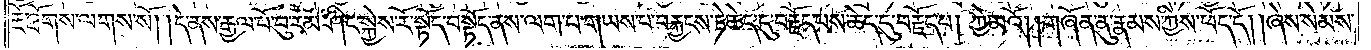རྔོ་ཐོགས་ལགས་སོ། །དེ་ནས་རྒྱལ་པོ་བུ་རམ་ཤིང་སྐྱེས་རོ་སྟོད་བསྟོད་ནས་ལག་པ་གཡས་པ་བརྐྱངས་ཏེ་ཆེད་དུ་བརྗོད་པས་ཆེད་དུ་བརྗོད་པ། ཀྱེ་མའོ། །གཞོན་ནུ་རྣམས་ཀྱིས་ཕོད་དོ། །ཞེས་སེམས་
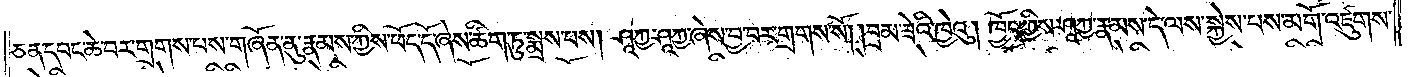ཅན་དབང་ཆེ་བར་གྲགས་པས་གཞོན་ནུ་རྣམས་ཀྱིས་ཕོད་དོ་ཞེས་ཚིག་ཏུ་སྨྲས་པས། ཤཱཀྱ་ཤཱཀྱ་ཞེས་བྱ་བར་གྲགས་སོ། །བྲམ་ཟེའི་ཁྱེའུ། ཁྱོད་ཀྱིས་ཤཱཀྱ་རྣམས་དེ་ལས་སྐྱེས་པས་མགོ་འཛུགས་
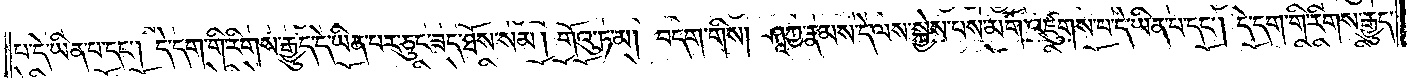པ་དེ་ཡིན་པ་དང༌། དེ་དག་གི་རིགས་རྒྱུད་དེ་ཡིན་པར་ཅུང་ཟད་ཐོས་སམ། གོའུ་ཏ་མ། བདག་གིས། ཤཱཀྱ་རྣམས་དེ་ལས་སྐྱེས་པས་མགོ་འཛུགས་པ་དེ་ཡིན་པ་དང༌། དེ་དག་གི་རིགས་རྒྱུད་
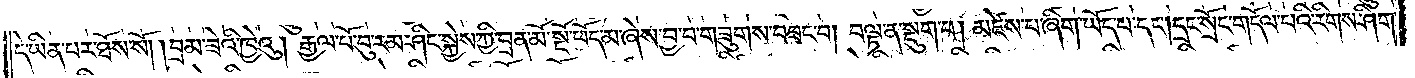དེ་ཡིན་པར་ཐོས་སོ། །བྲམ་ཟེའི་ཁྱེའུ། རྒྱལ་པོ་བུ་རམ་ཤིང་སྐྱེས་ཀྱི་བྲན་མོ་སྔོ་ཕོད་མ་ཞེས་བྱ་བ་གཟུགས་བཟང་བ། བལྟ་ན་སྡུག་པ། མཛེས་པ་ཞིག་ཡོད་པ་དང༌། དྲང་སྲོང་གདོལ་པའི་རིགས་ཤིག་
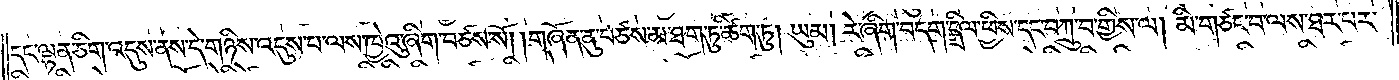དང་ལྷན་ཅིག་འདུས་ནས་དེ་གཉིས་འདུས་པ་ལས་ཁྱེའུ་ཞིག་བཙས་སོ། །གཞོན་ནུ་བཙས་མ་ཐག་ཏུ་ཚིག་ཏུ། ཡུམ། རེ་ཞིག་བདག་དྲིལ་ཕྱིས་དང་བཀྲུ་བ་གྱིས་ལ། མི་གཙང་བ་ལས་ཐར་པར་
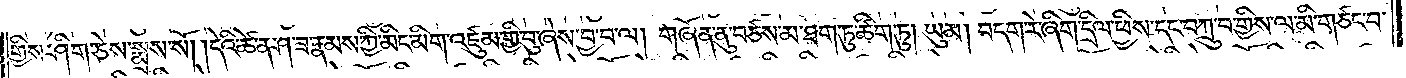གྱིས་ཤིག་ཅེས་སྨྲས་སོ། །དེའི་ཚེ་ན་ཤ་ཟ་རྣམས་ཀྱི་མིང་མིག་འཛུམ་གྱི་བུ་ཞེས་བྱ་བ་ལ། གཞོན་ནུ་བཙས་མ་ཐག་ཏུ་ཚིག་ཏུ། ཡུམ། བདག་རེ་ཞིག་དྲིལ་ཕྱིས་དང་བཀྲུ་བ་གྱིས་ལ་མི་གཙང་བ་
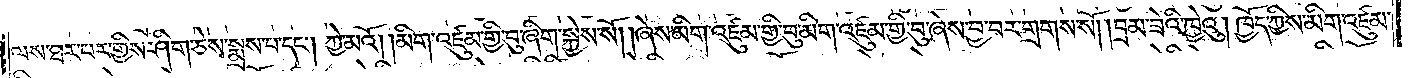ལས་ཐར་པར་གྱིས་ཤིག་ཅེས་སྨྲས་པ་དང༌། ཀྱེ་མའོ། །མིག་འཛུམ་གྱི་བུ་ཞིག་སྐྱེས་སོ། །ཞེས་མིག་འཛུམ་གྱི་བུ་མིག་འཛུམ་གྱི་བུ་ཞེས་བྱ་བར་གྲགས་སོ། །བྲམ་ཟེའི་ཁྱེའུ། ཁྱོད་ཀྱིས་མིག་འཛུམ་
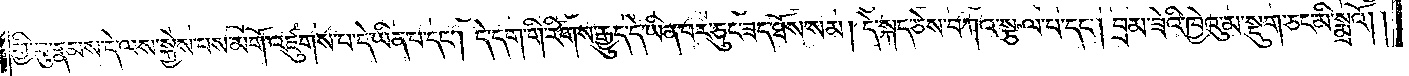གྱི་བུ་རྣམས་དེ་ལས་སྐྱེས་པས་མགོ་འཛུགས་པ་དེ་ཡིན་པ་དང༌། དེ་དག་གི་རིགས་རྒྱུད་དེ་ཡིན་པར་ཅུང་ཟད་ཐོས་སམ། དེ་སྐད་ཅེས་བཀའ་སྩལ་པ་དང༌། བྲམ་ཟེའི་ཁྱེའུ་མ་སྡུག་ཅང་མི་སྨྲའོ། །
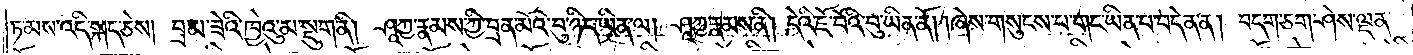ཏ་མས་འདི་སྐད་ཅེས། བྲམ་ཟེའི་ཁྱེའུ་མ་སྡུག་ནི། ཤཱཀྱ་རྣམས་ཀྱི་བྲན་མོའི་བུ་ཉིད་ཡིན་ལ། ཤཱཀྱ་རྣམས་ནི། དེའི་ཇོ་བོའི་བུ་ཡིན་ནོ། །ཞེས་གསུངས་པ་གང་ཡིན་པ་བདེན་ན། བདག་ཅག་ཤེས་ལྡན་
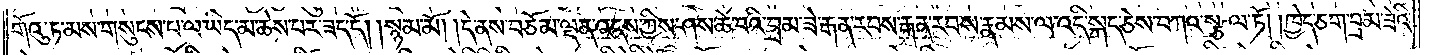གོའུ་ཏ་མས་གསུངས་པ་ལ་ཡིད་མ་ཆེས་པར་ཟད་དོ། །སྙམ་མོ། །དེ་ནས་བཅོམ་ལྡན་འདས་ཀྱིས་ཤས་ཆེ་བའི་བྲམ་ཟེ་རྒན་རབས་རྒན་རབས་རྣམས་ལ་འདི་སྐད་ཅེས་བཀའ་སྩལ་ཏོ། །ཁྱེད་ཅག་བྲམ་ཟེའི་
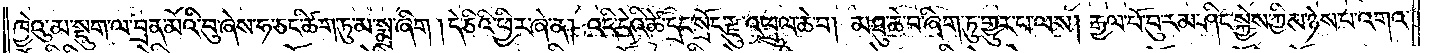ཁྱེའུ་མ་སྡུག་ལ་བྲན་མོའི་བུ་ཞེས་ཧ་ཅང་ཚིག་ཏུ་མ་སྨྲ་ཞིག །དེ་ཅིའི་ཕྱིར་ཞེ་ན། འདི་དེའི་ཚེ་དྲང་སྲོང་རྫུ་འཕྲུལ་ཆེ་བ། མཐུ་ཆེ་བ་ཞིག་ཏུ་གྱུར་པ་ལས། རྒྱལ་པོ་བུ་རམ་ཤིང་སྐྱེས་ཀྱིས་ཉེས་པ་འགའ་
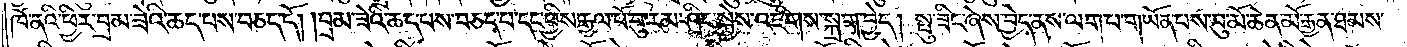ཁོ་ནའི་ཕྱིར་བྲམ་ཟེའི་ཆད་པས་བཅད་དོ། །བྲམ་ཟེའི་ཆད་པས་བཅད་པ་དང་ཕྱིས་རྒྱལ་པོ་བུ་རམ་ཤིང་སྐྱེས་འཇིགས་སྐྲག་བྱེད། སྤུ་ཟིང་ཞེས་བྱེད་ནས་ལག་པ་གཡོན་པས་བུ་མོ་ཆེན་མོ་རྒྱན་ཐམས་
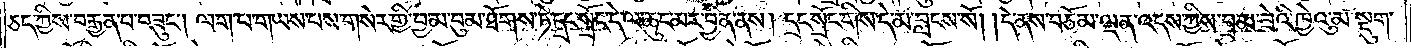ཅད་ཀྱིས་བརྒྱན་པ་བཟུང༌། ལག་པ་གཡས་པས་གསེར་གྱི་བྱ་མ་བུམ་ཐོགས་ཏེ་དྲང་སྲོང་དེ་ལ་ཆུང་མར་བྱིན་ནས། དྲང་སྲོང་གིས་དེ་མ་བླངས་སོ། །དེ་ནས་བཅོམ་ལྡན་འདས་ཀྱིས་བྲམ་ཟེའི་ཁྱེའུ་མ་སྡུག་
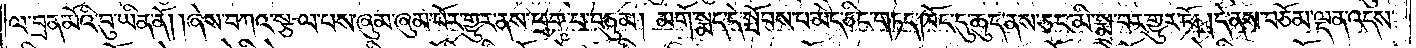ལ་བྲན་མོའི་བུ་ཡིན་ནོ། །ཞེས་བཀའ་སྩལ་པས་ཞུམ་ཞུམ་པོར་གྱུར་ནས་ཕྲག་པ་བཅུམ། མགོ་སྨད་དེ་སྤོབས་པ་མེད་ཅིང་གཏད་ཁོང་དུ་ཆུད་ནས་ཅང་མི་སྨྲ་བར་གྱུར་ཏོ། །དེ་ནས་བཅོམ་ལྡན་འདས་
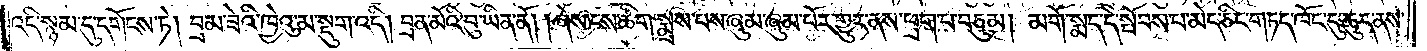འདི་སྙམ་དུ་དགོངས་ཏེ། བྲམ་ཟེའི་ཁྱེའུ་མ་སྡུག་འདི། བྲན་མོའི་བུ་ཡིན་ནོ། །ཞེས་ངས་ཚིག་སྨྲས་པས་ཞུམ་ཞུམ་པོར་གྱུར་ནས་ཕྲག་པ་བཅུམ། མགོ་སྨད་དེ་སྤོབས་པ་མེད་ཅིང་གཏད་ཁོང་དུ་ཆུད་ནས་
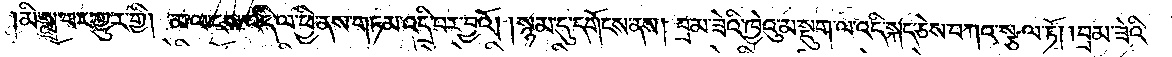མི་སྨྲ་བར་གྱུར་གྱི། མ་ལ་ངས་འདི་ལ་ཕྱི་ནས་གཏམ་འདྲི་བར་བྱའོ། །སྙམ་དུ་དགོངས་ནས། བྲམ་ཟེའི་ཁྱེའུ་མ་སྡུག་ལ་འདི་སྐད་ཅེས་བཀའ་སྩལ་ཏོ། །བྲམ་ཟེའི་
